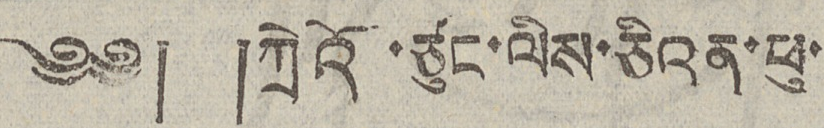༄༅། །ཀྲེའོ་ཙུང་ལིས་ཅིའན་ཕུ་
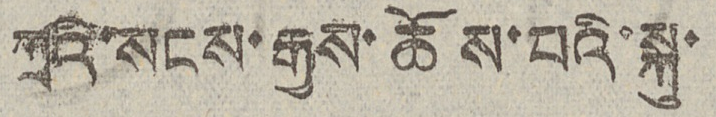ཀྲའི་སངས་རྒྱས་ཆོས་པའི་སྐུ་
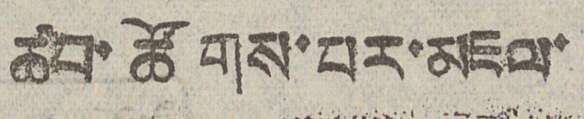ཚབ་ཚོགས་པར་མཇལ་
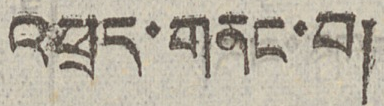འཕྲད་གནང་བ།
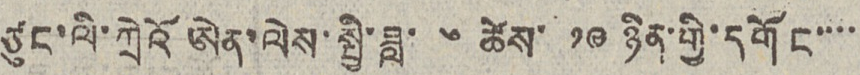ཙུང་ལི་ཀྲེའོ ཨེན་ལེས་སྤྱི་ཟླ་ ༦ ཚེས་ ༡༩ ཉིན་གྱི་དགོང་་་་
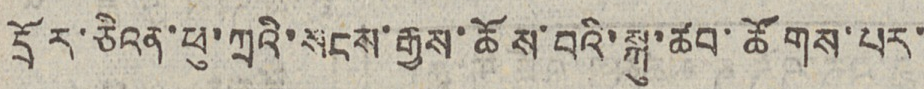དྲོར་ཅིའན་ཕུ་ཀྲའི་སངས་རྒྱས་ཆོས་པའི་སྐུ་ཚབ་ཚོགས་པར་
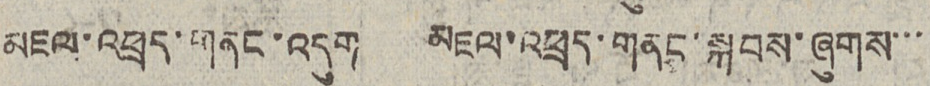མཇལ་འཕྲད་གནང་འདུག མཇལ་འཕྲད་གནང་སྐབས་ཞུགས་་་
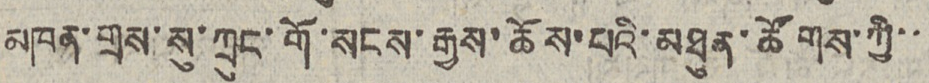མཁན་གྲས་སུ་ཀྲུང་གོ་སངས་རྒྱས་ཆོས་པའི་མཐུན་ཚོགས་ཀྱི་་
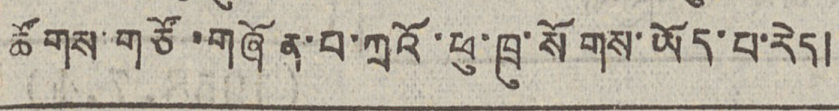ཚོགས་གཙོ་གཞོན་པ་ཀྲའོ་ཕུ་ཁྲུ་སོགས་ཡོད་པ་རེད།
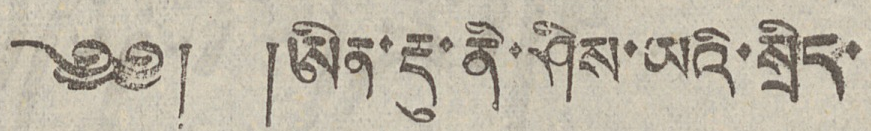༄༅། །ཨིན་རྡུ་ནི་ཤིས་ཡའི་སྲིད་
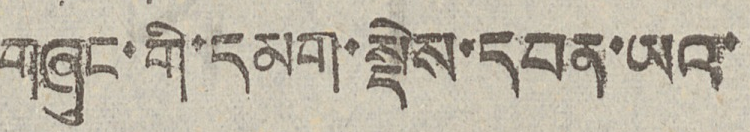གཞུང་གི་དམག་སྡེས་དབན་ཡའ་
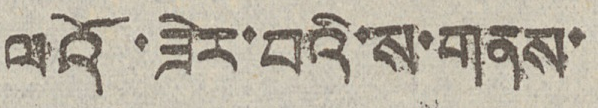ལའོ་ཟེར་བའི་ས་གནས་
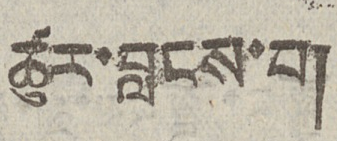ཚུར་བླངས་བ།
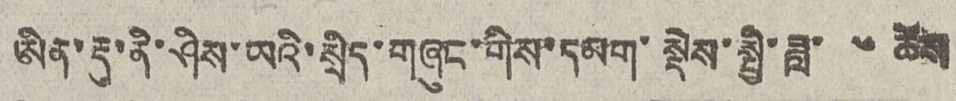ཨིན་རྡུ་ནི་ཤིས་ཡའི་སྲིད་གཞུང་གིས་དམག་སྡེས་སྤྱི་ཟླ་ ༦ ཚེས
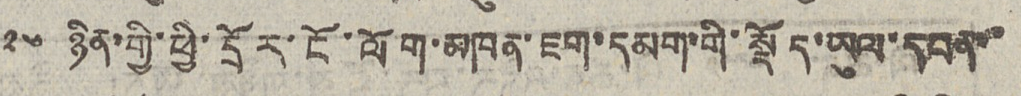༢༦ ཉིན་གྱི་ཕྱི་དྲོར་ངོ་ལོག་མཁན་ཇག་དམག་གི་སྡོད་ཡུལ་དབན་་
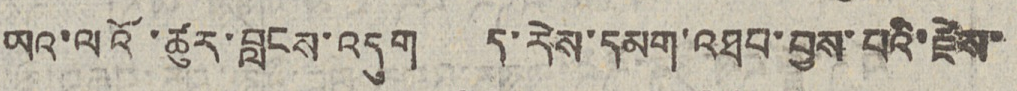ཡའ་ལའོ་ཚུར་བླངས་འདུག ད་རེས་དམག་འཐབ་བྱས་པའི་རྗེས་
